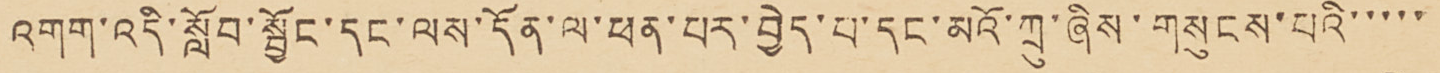འགག་འདི་སློབ་སྦྱོང་དང་ལས་དོན་ལ་ཕན་པར་བྱེད་པ་དང་མའོ་ཀྲུ་ཞིས་གསུངས་པའི་་་་་
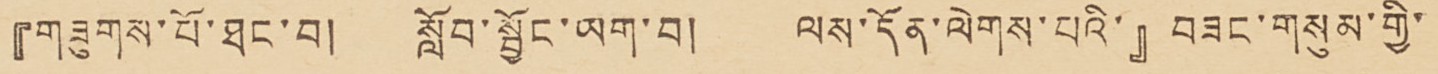『གཟུགས་པོ་ཐང་བ། སློབ་སྦྱོང་ཡག་བ། ལས་དོན་ལེགས་པའི་』བཟང་གསུམ་གྱི་
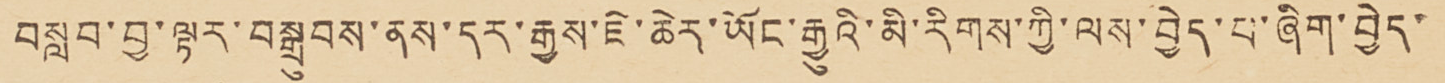བསླབ་བྱ་ལྟར་བསྒྲུབས་ནས་དར་རྒྱས་ཇེ་ཆེར་ཡོང་རྒྱུའི་མི་རིགས་ཀྱི་ལས་བྱེད་པ་ཞིག་བྱེད་
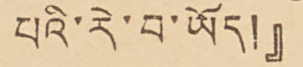པའི་རེ་བ་ཡོད།』
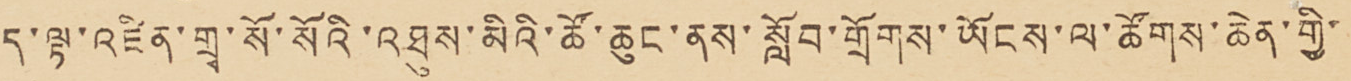ད་ལྟ་འཛིན་གྲྭ་སོ་སོའི་འཐུས་མིའི་ཚོ་ཆུང་ནས་སློབ་གྲོགས་ཡོངས་ལ་ཚོགས་ཆེན་གྱི་
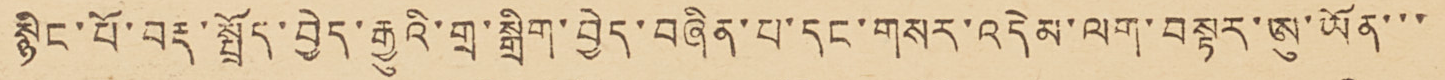སྙིང་པོ་བརྡ་སྤྲོད་བྱེད་རྒྱུའི་གྲ་སྒྲིག་བྱེད་བཞིན་པ་དང་གསར་འདེམ་ལག་བསྟར་ཨུ་ཡོན་་་
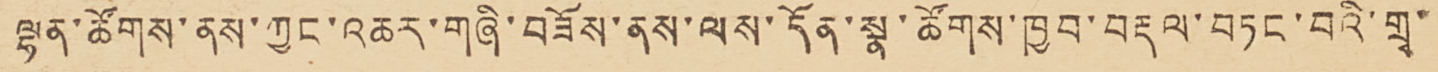ལྷན་ཚོགས་ནས་ཀྱང་འཆར་གཞི་བཟོས་ནས་ལས་དོན་སྣ་ཚོགས་ཁྱབ་བརྡལ་བཏང་བའི་གྲྭ་
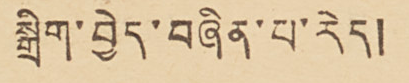སྒྲིག་བྱེད་བཞིན་པ་རེད།
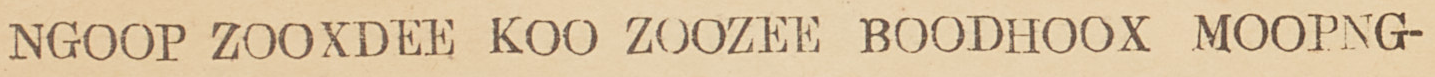NGOOP ZOOXDEE KOO ZOOZEE BOODHOOX MOOPNG-
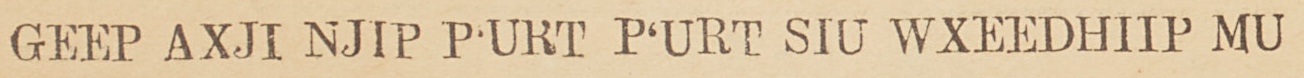GEEP AXJI NJIP P'URT P'URT SIU WXEEDHIIP MU
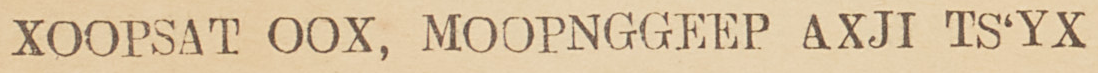XOOPSAT OOX, MOOPNGGEEP AXJI TS'YX
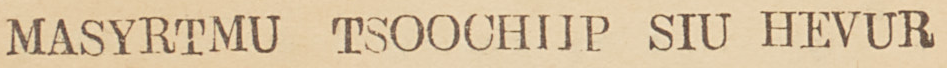MASYRTMU TSOOCHIIP SIU HEVUR
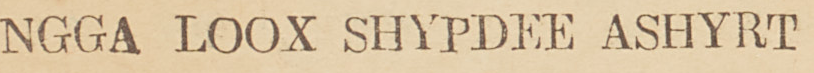NGGA LOOX SHYPDEE ASHYRT
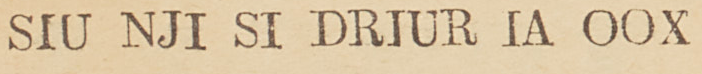SIU NJI SI DRIUR IA OOX
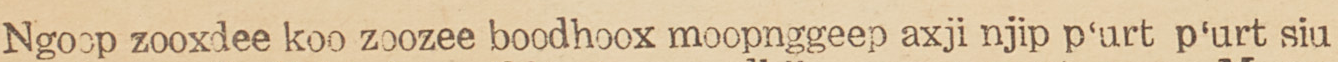Ngoop zooxdee koo zoozee boodhoox moopnggeep axji njip p'urt p'urt siu
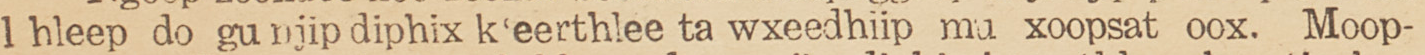l hleep do gu njip diphix k'eerthlee ta wxeedhiip mu xoopsat oox. Moop-
